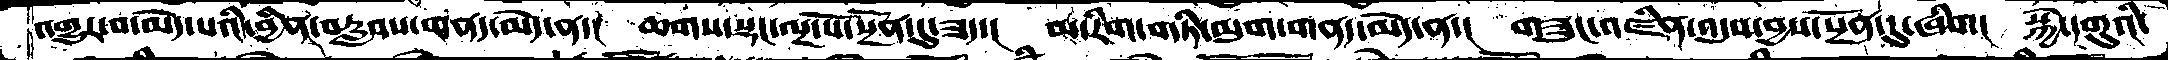འགྱུར་བ་མེད་པའི་བྱིན་བརླབས་གནད་མེད་ན་།  ཆགས་སྡང་ལྔ་པོ་སྔོན་དུ་ཟད་།  མ་རིག་གཏི་མུག་གནད་མེད་ན་།  གཟུང་འཛིན་འདུས་བྱས་སྔོན་དུ་ཞིག།  སྐྱེ་དགུའི་
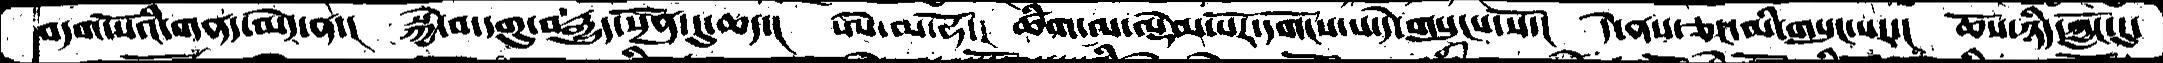བདག་པོའི་གནད་མེད་ན་།  སྐྱེ་བ་དགུ་རྒྱུད་སྔོན་དུ་ཆད་།  ཨེ་མ་ཧོ་།  ཚིག་ལ་ལྡེམ་པོར་དགོངས་པ་དེ་གསུངས་སོ་།  དེ་ནས་ཅང་མི་གསུང་པར་།  ཆོས་ཉིད་ཀློང་དུ་
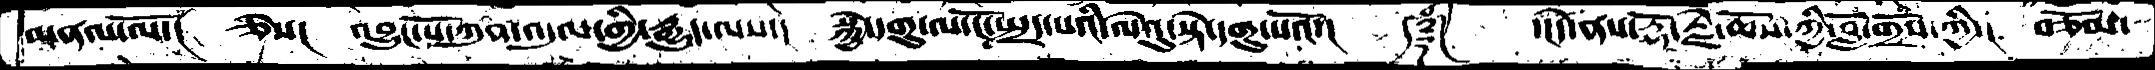མནལ་ལོ་།  ཅེས།  འབྱུང་པོ་ཀུན་འདུལ་གྱི་རྒྱུད་ལས་།  སྐྱེ་དགུ་ལ་ངོ་སྤྲད་པའི་ལེའུ་སྟེ་དགུ་པའོ་།    ༿༈༾  ་།དེ་ནས་རྡོ་རྗེ་ཆོས་ཀྱི་བློ་གྲོས་ཀྱི་།  བཅོམ་
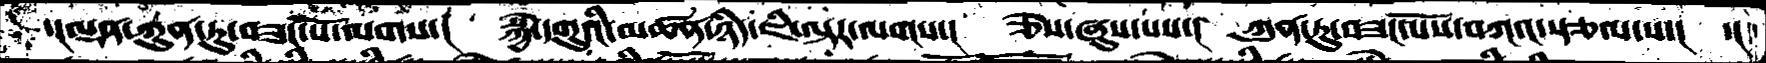་།ལྡན་ཀུན་ཏུ་བཟང་པོ་ལགས་།  སྐྱེ་དགུའི་མཚན་ཉིད་ཇི་ལྟར་ལགས་།  ཅེས་ཞུས་པས་།  ཀུན་ཏུ་བཟང་པོས་བཀའ་སྩལ་པ་།  ་།
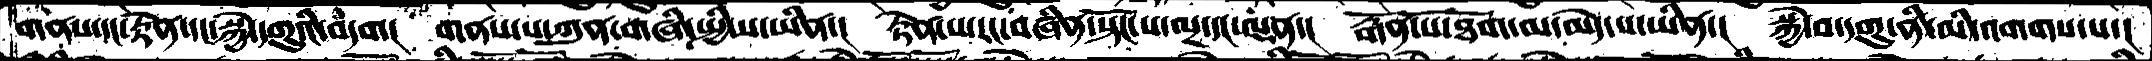གནས་དང་རྟེན་དང་སྐྱེ་དགུའི་བདག།  གནས་པ་ཀུན་གཞི་སྤྱི་ས་ཡིན་།   རྟེན་པ་རང་བཞིན་སྟོང་པ་ལྔ་དང་ལྡན་།  རྒོན་པོ་ཐོག་མ་མེད་པ་ཡིན་།  སྐྱེ་བ་དགུ་ནི་མི་འགགས་པ་།
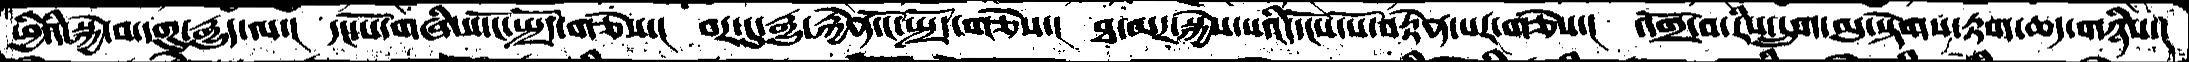ཕྱིའི་སྐྱེ་བ་དགུ་རྒྱུད་ལ་།  དང་པོ་གཞི་ས་ངོ་སྤྲོད་གཅེས་།  བར་དུ་རྒྱུ་རྐྱེན་ངོ་སྤྲོད་གཅེས་།  ཐ་མར་སྐྱེས་པའི་དངོས་པོ་བརྟེན་པར་གཅེས་།  འགྲོ་བ་རིས་དྲུག་མུ་སྟེགས་རྟག་ཆད་གཉིས་།
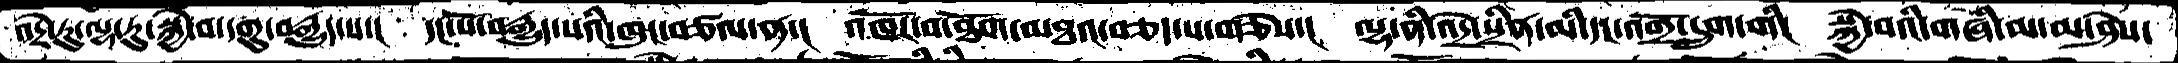འདྲེ་རུ་ལྷ་རུ་སྐྱེ་བ་དགུ་བརྒྱུད་པ་།  དང་པོ་བརྒྱུད་པའི་ཁུང་བཙལ་ན་།  འཁོར་བ་ཐོག་མཐའ་བཅད་པ་གཅེས་།  ལྷ་ནི་འདྲེ་སྲིན་མི་དང་འགྲོ་དྲུག་གི།  སྐྱེ་བའི་གཞི་མ་མ་ཤེས་
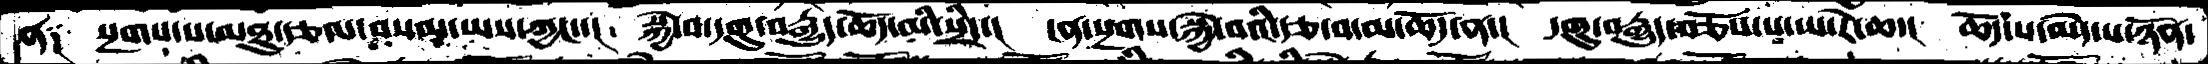ན༑  སྔགས་པ་མཐུ་རྩལ་བསམ་ཡས་ཀྱང་་།  སྐྱེ་བ་དགུ་བརྒྱུད་ཆོད་མི་སྲིད་།  ངན་སྔགས་སྐྱེ་བའི་རྩ་བ་མ་ཆོད་ན་།  དགུ་བརྒྱུད་བཅོས་པ་ཡ་རེ་ཆད་།  ཆོད་པ་མེད་པ་ཉོན་
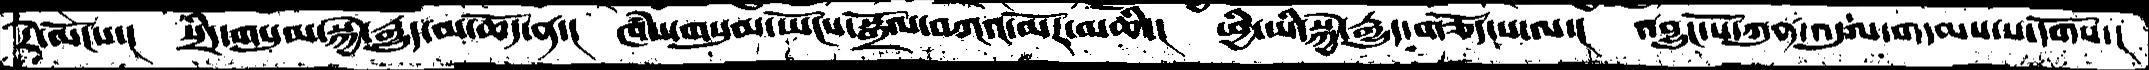རེ་མོངས་།  སྲིད་གསུམ་སྐྱེ་རྒྱུད་མ་ཆོད་ན་།  ཁཾས་གསུམ་ཡོངས་སྒྲོལ་བཀའ་མོར་མཆི་།  ཕྱི་ཡི་སྐྱེ་རྒྱུད་གཅོད་པ་ལ་།  འབྱུང་པོ་ཀུན་འདུལ་གདམས་པ་དགོས་།
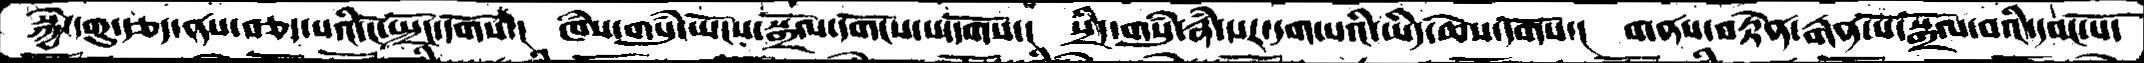སྐྱེ་དགུ་རྩད་ནས་བཅད་པའི་ངོ་སྤྲོད་དགོས་།  ཁཾས་གསུཾ་ཡོངས་སྒྲོལ་དགོངས་པ་དགོས་།  སྲིད་གསུཾ་རྣཾ་པར་དག་པའི་ཡིད་ཆེས་དགོས་།  གནས་བརྟེན་རྒན་པོ་སྒྲོལ་བའི་དབང་པོ་
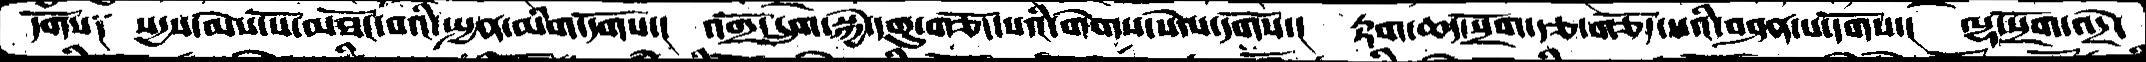དགོས༑  སདྱས་མེས་པོ་མཐོང་བའི་སྤྱན་མིག་དགོས་།  འགྲོ་དྲུག་སྐྱེ་དགུ་གཅོད་པའི་གེགས་སེལ་དགོས་།  རྟག་ཆད་སྲོག་རྩ་གཅོད་པའི་བཤན་པ་དགོས་།  ལྷ་སྲོག་འདྲེ་
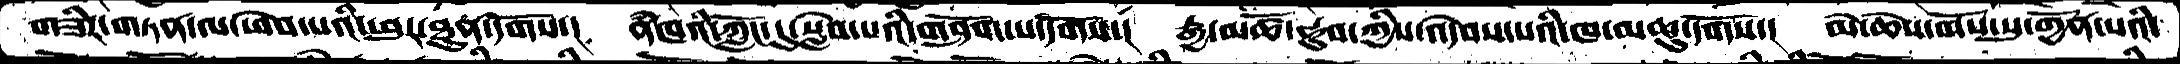གཟིར་གཏན་ལ་ཕེབ་པའི་ཕུར་ཐུན་དགོས་།  ནཾཁའི་ཀློང་དུ་སླེབ་པའི་གཤོག་པ་དགོས་།  རྒྱ་མཚོ་ཧུབ་ཀྱིས་འདེབས་པའི་ཁ་མཆུ་དགོས་།  མེ་ཆེས་གོས་སུ་གྱོན་པའི་
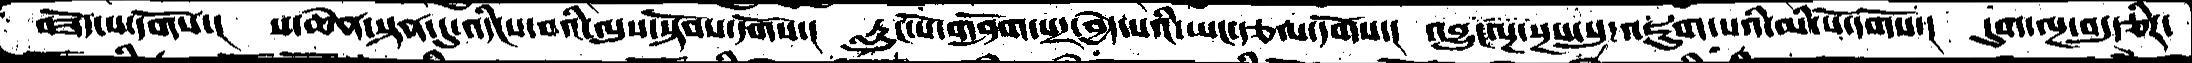བཟོད་པ་དགོས་།  ས་ཆེན་སྟན་དུ་འདིངས་བའི་ལུས་སྟོབས་དགོས་།  རླུང་པོ་གཤོག་པར་བྱེད་པའི་ཡང་རྩལ་དགོས་།  འབྱུང་ལྔ་སྔས་སུ་འཇུག་པའི་མི་སོ་དགོས་།  དུག་ལྔ་བདུདཅིར་
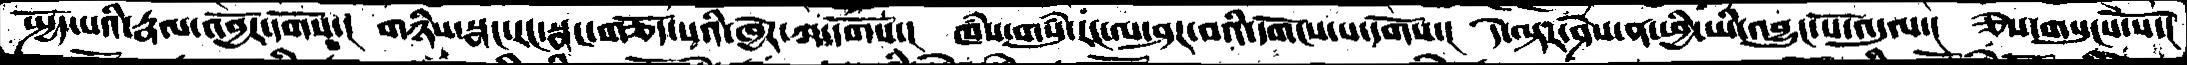སྤྱོད་པའི་རྣལ་འབྱོར་དགོས་།  གཉིས་སྣང་རང་སྣང་གཅོད་པའི་ཁྱེར་ཀ་དགོས་།  ཁཾས་གསུཾ་རང་ལ་ཤར་བའི་དགོངས་པ་དགོས་།  དེ་ལྟར་ཤེས་ན་ཕྱི་ཡི་འབྱུང་པོ་འདུལ་།  ཅེས་གསུངས་སོ་།
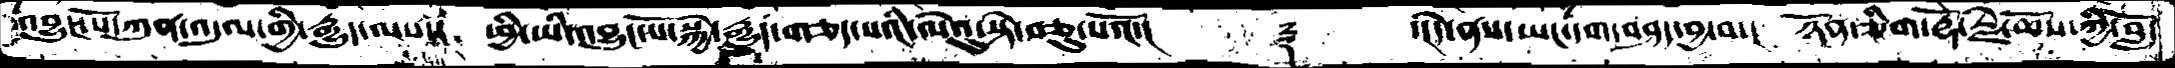འབྱུང་པོ་ཀུན་འདུལ་གྱི་རྒྱུད་ལས་།  ཕྱི་ཡི་འབྱུང་པོ་སྐྱེ་རྒྱུད་གཅད་པའི་ལེའུ་སྟེ་བཅུ་པའོ་།   ༈   ་།དེ་ནས་ཡང་དག་བཤད་བྱ་བ་།  ཉོན་ཅིག་རྡོ་རྗེ་ཆོས་ཀྱི་བློ་
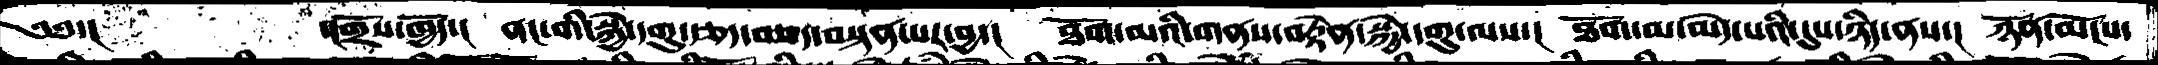༄༅་།    ་།གྲོས་ཁྱོད་།  ནང་གི་སྐྱེ་དགུ་རྩད་བཅད་བསྟན་པར་བྱ་།  ཐོག་མའི་གནས་བརྟེན་སྐྱེ་དགུ་ལས་།  ཐོག་མ་མེད་པའི་དུས་ཉིད་ནས་།  ཉོན་མོངས་
